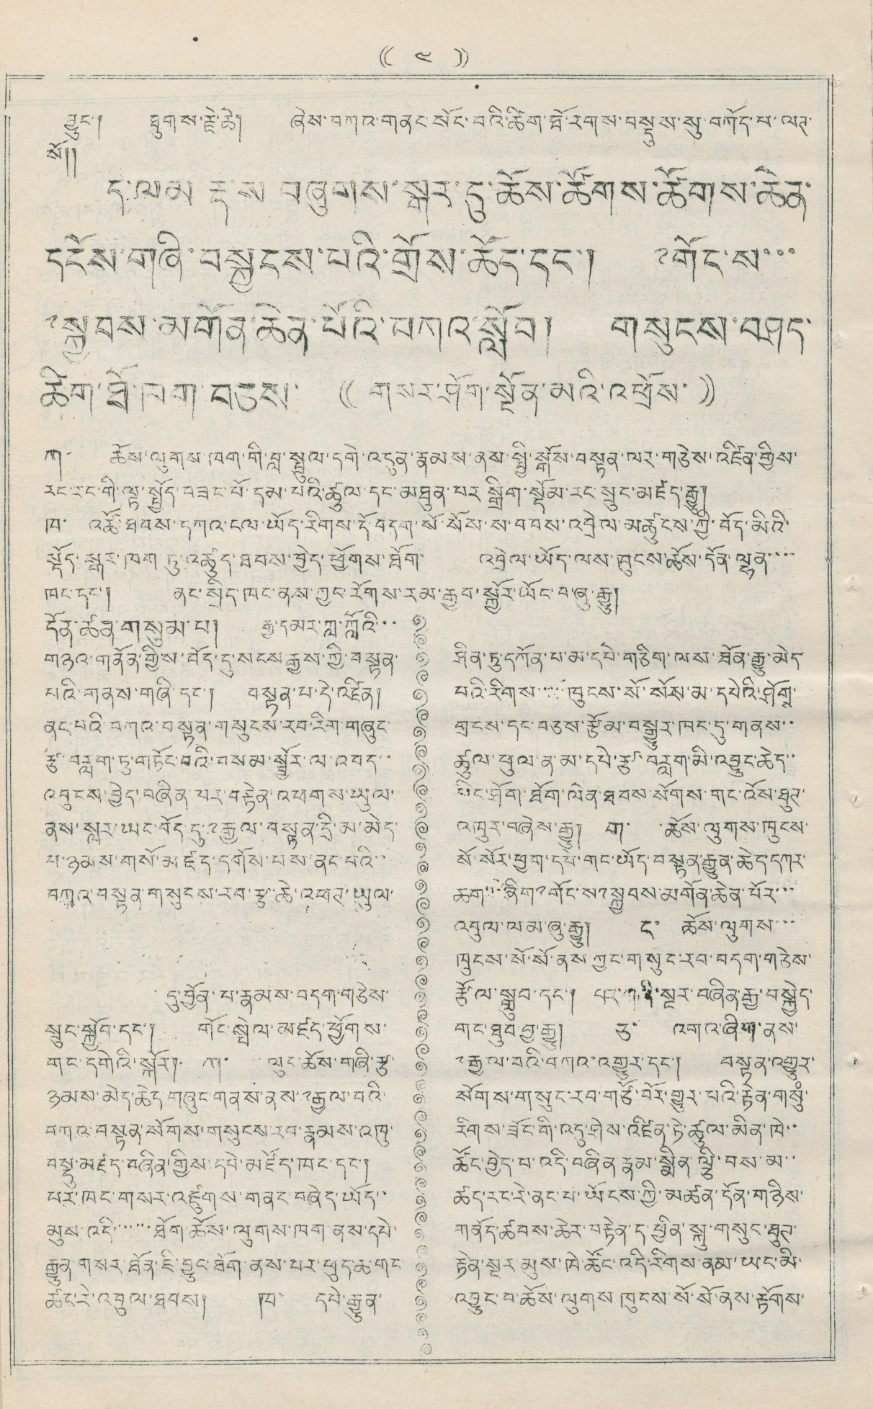(( ༤ ))
བྱུང་། ཐུགས་རྗེ་ཆེ། ཞེས་བཀའ་གནང་སོང་བའི་ཚིག་ཐོ་རགས་བསྡུས་སུ་བཀོད་པ་ལཊ་
སོ།།
ད་ལམ རྡེས བཞུགས་སྒར་དུ་ཆོས་ཚོགས་ཚོགས་ཆེན་
དངོས་གཞི་བསྐྱངས་པའི་གྲོས་ཆོད་དང་། ༸གོང་ས་་་
༸སྐྱབས་མགོན་ཆེན་པོའི་བཀའ་སློབ། གསུངས་བཤད་
ཚིག་ཐེ་ཁག་བཅས་
(( གསར་ཤོག་སྔོན་མའི་འཕྲོས་ ))
ཀ་ ཆོས་ལུགས་ཁག་གི་བླ་སྤྲུལ་དགེ་འདུན་རྣམས་ནས་སྤྱི་སྒོས་བསྟན་ལར་གཅེས་འཛིན་གྱིས་
རང་རང་གི་ལྟ་སྤྱོད་བཟང་པོ་དམ་པོའི་ཚུལ་དང་མཐུན་པར་སྒྲིག་སྡོམ་རང་སྲུང་མཛད་རྒྱུ།
ཁ་ འཚོ་ཐབས་དཀའ་ངལ་ཡོད་རིགས་དོ་བདག་སོ་སོས་ས་བབས་འབྲེལ་མཚུངས་ཀྱི་བོད་མིའི་
སྟོད་སྒར་ཁག ཏུ་འཚུད་ཐབས་བྱེད་ཕྱོགས་ཐོག་ འབྲེལ་ཡོད་ལས་ཁུངས་ཆོས་དོན་ལྷན་་་་
ཁང་དང་། ནང་སྲིད་ཁང་ནས་ཀྱང་རོགས་རམ་རྒྱབ་སྐྱོར་ཡོང་བཞུ་རྒྱུ།
དོན་ཚན་གསུམ་པ། རྒྱ་དམར་ཀླ་ཀློའི་་་
གཉའ་གནོན་གྱིས་བོད་དུ་སངས་རྒྱས་ཀྱི་བསྟན་
པའི་གནས་གཞི་དང་། བསྟན་པ་དེ་འཛིན།
ནང་པའི་བཀའ་བསྟན་གསུངས་རབ་རིག་གཞུང་
རྩ་བརླག་ཏུ་གཏོང་བའི་བསམ་སྦྱོར་ལ་འབད་་
འབུངས་བྱེད་བཞིན་པར་བརྟེན་འཕགས་ཡུལ་
ནས་སླར་ཡང་བོད་དུ་༸རྒྱལ་བསྙན་དྲི་མ་མེད་
པ་ཉམས་གསོ་མཛད་དགོས་པས་ནང་པའི་་
བཀའ་བསྟན་གསུངས་རབ་རྩ་ཆེ་འཕཊ་ཡུལ།
དུ་བྱོན་པ་རྣམས་བདག་གཅེས་
སྲུང་སྐྱོབ་དང་། གོང་སྤེལ་མཛད་ཕྱོགས་
གང་དགའི་སྐོར། ཀ་ ལུང་ཆོས་གཞི་རྩ་
ཉམས་མེད་ཆེད་གཞུང་གནས་ནས་༸རྒྱལ་བའི་
བཀའ་བསྟན་སོགས་གསུངས་རབ་རྣམས་འཁུ་
བསྡུ་མཛད་བཞིན་གྱིས་དཔེ་མཛོད་ཁང་དང་།
པར་ཁང་གསར་འཛུགས་གནང་བཞེད་ཡོད་་
མུས་འདི་་་་་་་ཐོག་ཆོས་ལུགས་ཁག ནས་དཔེ་
རྒྱུན་གསར་ཐོན་ཇི་བྱུང་ཐོག་ནས་པར་ཕུད་ཆ་གང་
ཚང་རེ་འབུལ་ཐབས། ཁ་ དཔེ་རྒྱུན་
ཤིན་ཏུ་དཀོན་པ་མ་དཔེ་གཅིག་ལས་ཐོན་རྒྱུ་མེད།
བའི་རིགས་་་་་་ཁུངས་སོ་སོས་མ་དཔེའི་ཤོགྶ་
གྲངས་དང་བཅས་རྩོམ་བསྒྱུར་ཁང་དུ་གནས་་
ཚུལ་ཕུལ་ན་མ་དཔེ་རྩ་བརླག་མི་འབྱུང་ཆེད་་
པིང་ཤོག་ཐོག་ལེན་ཐབས་སོགས་གང་འོས་ཐུཊ་
འཁུར་བཞེས་རྒྱུ། ག་ ཆོས་ལུགས་ཁུངས་
སོ་སོར་ཕྱག་དཔེ་གང་ཡོད་བསྟན་རྒྱུན་ཆེད་དཀར་
ཆག་་་ཞིག་༸གོང་ས་༸སྐྱབས་མགོན་ཆེན་པོར་་་
འབུལ་ལམ་ཞུ་རྒྱུ། ང་ ཆོས་ལུགས་་་
ཁུངས་སོ་སོ་ནས་ཀྱང་གསུང་རབ་བདག་གཅེས་
རྩོལ་སྒྲུབ་དང་། པར་གཞི་སྔར་བཞིན་རྒྱ་བསྐྱེད་
གང་ཐུབ་བྱ་རྒྱུ། ཅ་ འགའ་ཞིག་ནས་
༸རྒྱལ་བའི་བཀའ་འགྱུར་དང་། བསྟན་འགྱུར་
སོགས་གསུང་རབ་གཙོ་བོར་གྱུར་པའི་རྟེན་གསུཾ་
རིགས་ཟོང་གི་འདུ་ཤེས་འཛིན་ཏེ་ཚུལ་མིན་ཁེ་་
ཚོང་བྱེད་པ་འདི་བཞིན་རྣམ་སྨིན་ལྕི་བས་མ་་
ཚད་རང་རེ་ནང་པ་ཡོངས་ཀྱི་མཚན་དོན་གཉིས་
གནོད་ཚབས་ཆེར་བརྟེན་དུ་ཕྱིན་སྐུ་གསུང་ཐུཊ་
རྟེན་སྔར་མུས་ཁེ་ཚོང་འདི་རིགས་ནམ་ཡང་མི་
འབྱུང་བ་ཆོས་ལུགས ཁུངས་སོ་སོ་ནས་རྟོགས་
